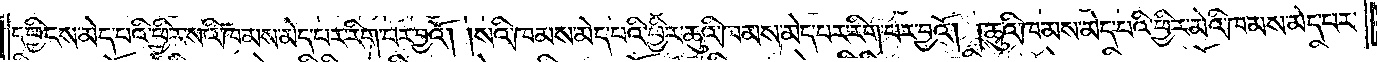དབྱིངས་མེད་པའི་ཕྱིར་སའི་ཁམས་མེད་པར་རིག་པར་བྱའོ། །སའི་ཁམས་མེད་པའི་ཕྱིར་ཆུའི་ཁམས་མེད་པར་རིག་པར་བྱའོ། །ཆུའི་ཁམས་མེད་པའི་ཕྱིར་མེའི་ཁམས་མེད་པར་
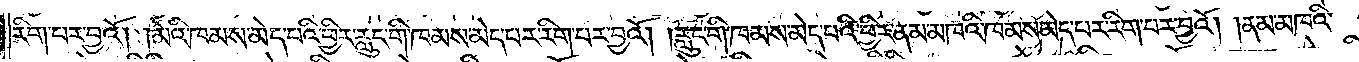རིག་པར་བྱའོ། །མེའི་ཁམས་མེད་པའི་ཕྱིར་རླུང་གི་ཁམས་མེད་པར་རིག་པར་བྱའོ། །རླུང་གི་ཁམས་མེད་པའི་ཕྱིར་ནམ་མཁའི་ཁམས་མེད་པར་རིག་པར་བྱའོ། །ནམ་མཁའི་
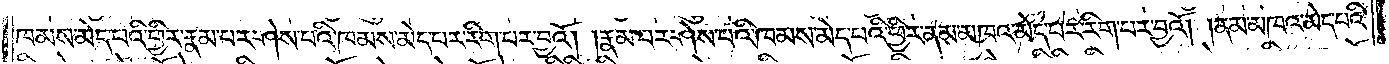ཁམས་མེད་པའི་ཕྱིར་རྣམ་པར་ཤེས་པའི་ཁམས་མེད་པར་རིག་པར་བྱའོ། །རྣམ་པར་ཤེས་པའི་ཁམས་མེད་པའི་ཕྱིར་ནམ་མཁའ་མེད་པར་རིག་པར་བྱའོ། །ནམ་མཁའ་མེད་པའི་
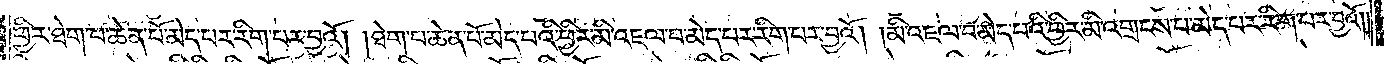ཕྱིར་ཐེག་པ་ཆེན་པོ་མེད་པར་རིག་པར་བྱའོ། །ཐེག་པ་ཆེན་པོ་མེད་པའི་ཕྱིར་མི་འཇལ་བ་མེད་པར་རིག་པར་བྱའོ། །མི་འཇལ་བ་མེད་པའི་ཕྱིར་མི་འགྲངས་པ་མེད་པར་རིག་པར་བྱའོ༎
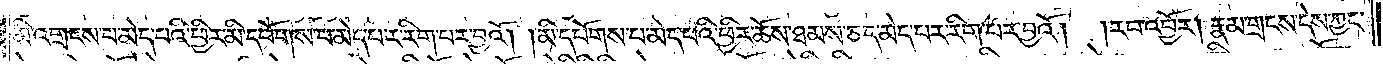མི་འགྲངས་པ་མེད་པའི་ཕྱིར་མི་དཔོགས་པ་མེད་པར་རིག་པར་བྱའོ༎ མི་དཔོགས་པ་མེད་པའི་ཕྱིར་ཆོས་ཐམས་ཅད་མེད་པར་རིག་པར་བྱའོ། །རབ་འབྱོར། རྣམ་གྲངས་དེས་ཀྱང་
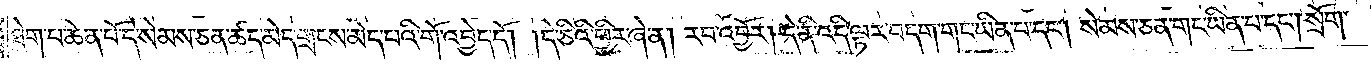ཐེག་པ་ཆེན་པོ་དེ་སེམས་ཅན་ཚད་མེད་གྲངས་མེད་པའི་གོ་འབྱེད་དོ། །དེ་ཅིའི་ཕྱིར་ཞེ་ན། རབ་འབྱོར། དེ་ནི་འདི་ལྟར་བདག་གང་ཡིན་པ་དང༌། སེམས་ཅན་གང་ཡིན་པ་དང༌། སྲོག་
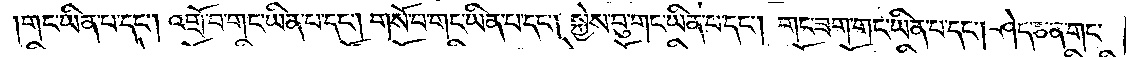གང་ཡིན་པ་དང༌། འགྲོ་བ་གང་ཡིན་པ་དང༌། གསོ་བ་གང་ཡིན་པ་དང༌། སྐྱེས་བུ་གང་ཡིན་པ་དང༌། གང་ཟག་གང་ཡིན་པ་དང༌། ཤེད་ཅན་གང་
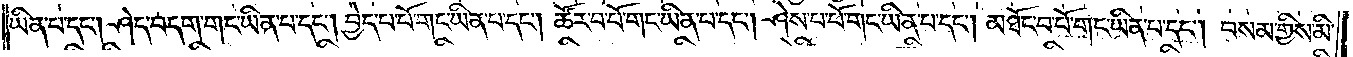ཡིན་པ་དང༌། ཤེད་བདག་གང་ཡིན་པ་དང༌། བྱེད་པ་པོ་གང་ཡིན་པ་དང༌། ཚོར་བ་པོ་གང་ཡིན་པ་དང༌། ཤེས་པ་པོ་གང་ཡིན་པ་དང༌། མཐོང་བ་པོ་གང་ཡིན་པ་དང༌། བསམ་གྱིས་མི་
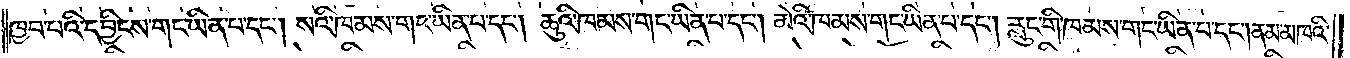ཁྱབ་པའི་དབྱིངས་གང་ཡིན་པ་དང༌། སའི་ཁམས་གང་ཡིན་པ་དང༌། ཆུའི་ཁམས་གང་ཡིན་པ་དང༌། མེའི་ཁམས་གང་ཡིན་པ་དང༌། རླུང་གི་ཁམས་གང་ཡིན་པ་དང༌། ནམ་མཁའི་
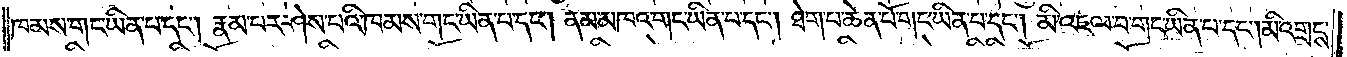ཁམས་གང་ཡིན་པ་དང༌། རྣམ་པར་ཤེས་པའི་ཁམས་གང་ཡིན་པ་དང༌། ནམ་མཁའ་གང་ཡིན་པ་དང༌། ཐེག་པ་ཆེན་པོ་གང་ཡིན་པ་དང༌། མི་འཇལ་བ་གང་ཡིན་པ་དང༌། མི་འགྲངས་
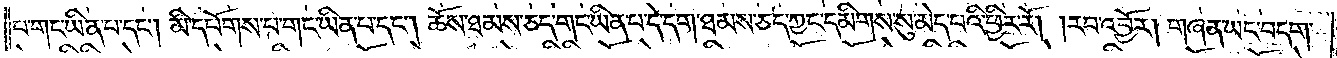པ་གང་ཡིན་པ་དང༌། མི་དཔོགས་པ་གང་ཡིན་པ་དང༌། ཆོས་ཐམས་ཅད་གང་ཡིན་པ་དེ་དག་ཐམས་ཅད་ཀྱང་དམིགས་སུ་མེད་པའི་ཕྱིར་རོ། །རབ་འབྱོར། གཞན་ཡང་བདག་
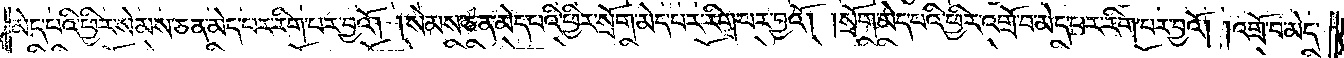མེད་པའི་ཕྱིར་སེམས་ཅན་མེད་པར་རིག་པར་བྱའོ། །སེམས་ཅན་མེད་པའི་ཕྱིར་སྲོག་མེད་པར་རིག་པར་བྱའོ། །སྲོག་མེད་པའི་ཕྱིར་འགྲོ་བ་མེད་པར་རིག་པར་བྱའོ། །འགྲོ་བ་མེད་
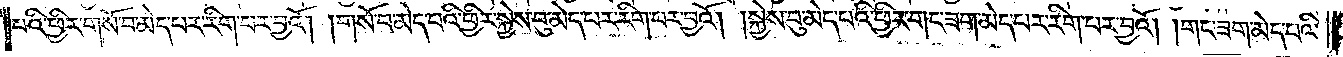པའི་ཕྱིར་གསོ་བ་མེད་པར་རིག་པར་བྱའོ། །གསོ་བ་མེད་པའི་ཕྱིར་སྐྱེས་བུ་མེད་པར་རིག་པར་བྱའོ། །སྐྱེས་བུ་མེད་པའི་ཕྱིར་གང་ཟག་མེད་པར་རིག་པར་བྱའོ། །གང་ཟག་མེད་པའི་
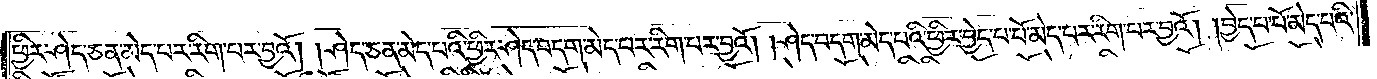ཕྱིར་ཤེད་ཅན་མེད་པར་རིག་པར་བྱའོ། །ཤེད་ཅན་མེད་པའི་ཕྱིར་ཤེད་བདག་མེད་པར་རིག་པར་བྱའོ། །ཤེད་བདག་མེད་པའི་ཕྱིར་བྱེད་པ་པོ་མེད་པར་རིག་པར་བྱའོ། །བྱེད་པ་པོ་མེད་པའི་
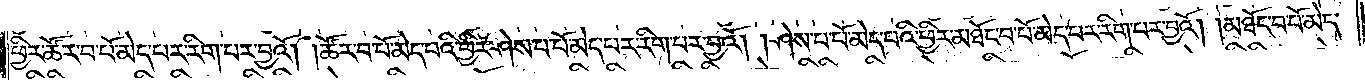ཕྱིར་ཚོར་བ་པོ་མེད་པར་རིག་པར་བྱའོ། །ཚོར་བ་པོ་མེད་པའི་ཕྱིར་ཤེས་པ་པོ་མེད་པར་རིག་པར་བྱའོ། །ཤེས་པ་པོ་མེད་པའི་ཕྱིར་མཐོང་བ་པོ་མེད་པར་རིག་པར་བྱའོ། །མཐོང་བ་པོ་མེད་
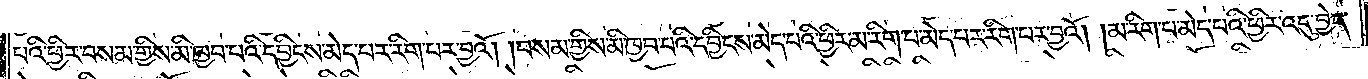པའི་ཕྱིར་བསམ་གྱིས་མི་ཁྱབ་པའི་དབྱིངས་མེད་པར་རིག་པར་བྱའོ། །བསམ་གྱིས་མི་ཁྱབ་པའི་དབྱིངས་མེད་པའི་ཕྱིར་མ་རིག་པ་མེད་པར་རིག་པར་བྱའོ། །མ་རིག་པ་མེད་པའི་ཕྱིར་འདུ་བྱེད་
